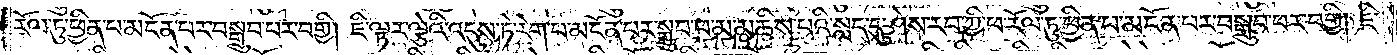རོལ་ཏུ་ཕྱིན་པ་མངོན་པར་བསྒྲུབ་པར་བགྱི། ཇི་ལྟར་ལྕེའི་འདུས་ཏེ་རེག་པ་མངོན་པར་སྒྲུབ་པ་མ་མཆིས་པའི་སླད་དུ་ཤེས་རབ་ཀྱི་ཕ་རོལ་ཏུ་ཕྱིན་པ་མངོན་པར་བསྒྲུབ་པར་བགྱི། ཇི་
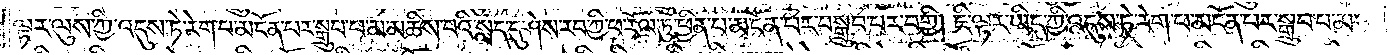ལྟར་ལུས་ཀྱི་འདུས་ཏེ་རེག་པ་མངོན་པར་སྒྲུབ་པ་མ་མཆིས་པའི་སླད་དུ་ཤེས་རབ་ཀྱི་ཕ་རོལ་ཏུ་ཕྱིན་པ་མངོན་པར་བསྒྲུབ་པར་བགྱི། ཇི་ལྟར་ཡིད་ཀྱི་འདུས་ཏེ་རེག་པ་མངོན་པར་སྒྲུབ་པ་མ་
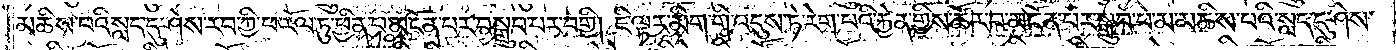མཆིས་པའི་སླད་དུ་ཤེས་རབ་ཀྱི་ཕ་རོལ་ཏུ་ཕྱིན་པ་མངོན་པར་བསྒྲུབ་པར་བགྱི། ཇི་ལྟར་མིག་གི་འདུས་ཏེ་རེག་པའི་རྐྱེན་གྱིས་ཚོར་བ་མངོན་པར་སྒྲུབ་པ་མཆིས་པའི་སླད་དུ་ཤེས་
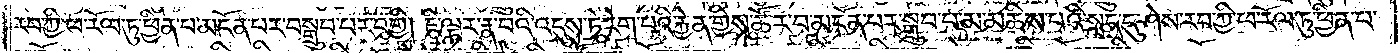རབ་ཀྱི་ཕ་རོལ་ཏུ་ཕྱིན་པ་མངོན་པར་བསྒྲུབ་པར་བགྱི། ཇི་ལྟར་རྣ་བའི་འདུས་རེ་རག་པའི་རྐྱེན་གྱིས་ཚོར་བ་མངོན་པར་སྒྲུབ་པ་མ་མཆིས་པའི་སླད་དུ་ཤེས་རབ་ཀྱི་ཕ་རོལ་ཏུ་ཕྱིན་པ་
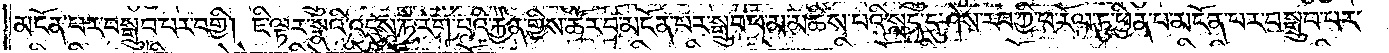མངོན་པར་བསྒྲུབ་པར་བགྱི། ཇི་ལྟར་སྣའི་འདུས་རེ་རེག་པའི་རྐྱེན་གྱིས་ཚོར་བ་མངོན་པར་སྒྲུབ་པ་མ་མཆིས་པའི་སླད་དུ་ཤེས་རབ་ཀྱི་ཕ་རོལ་ཏུ་ཕྱིན་པ་མངོན་པར་བསྒྲུབ་པར་
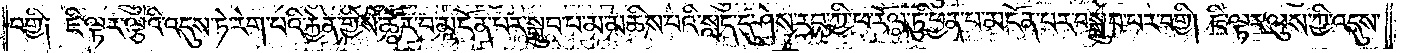བགྱི༑ ཇི་ལྟར་ལྕེའི་འདུས་ཏེ་རེག་པའི་རྐྱེན་གྱིས་ཚོར་བ་མངོན་པར་སྒྲུབ་པ་མ་མཆིས་པའི་སླད་དུ་ཤེས་རབ་ཀྱི་ཕ་རོལ་ཏུ་ཕྱིན་པ་མངོན་པར་བསྒྲུབ་པར་བགྱི། ཇི་ལྟར་ལུས་ཀྱི་འདུས་
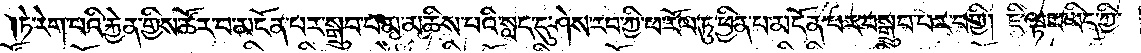ཏེ་རེག་པའི་རྐྱེན་གྱིས་ཚོར་བ་མངོན་པར་སྒྲུབ་པ་མ་མཆིས་པའི་སླད་དུ་ཤེས་རབ་ཀྱི་ཕ་རོལ་ཏུ་ཕྱིན་པ་མངོན་པར་བསྒྲུབ་པར་བགྱི། ཇི་ལྟར་ཡིད་ཀྱི་
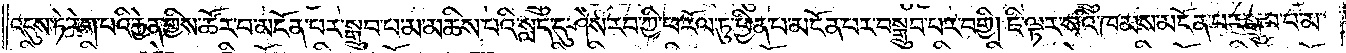འདུས་ཏེ་རེག་པའི་རྐྱེན་གྱིས་ཚོར་བ་མངོན་པར་སྒྲུབ་པ་མ་མཆིས་པའི་སླད་དུ་ཤེས་རབ་ཀྱི་ཕ་རོལ་ཏུ་ཕྱིན་པ་མངོན་པར་བསྒྲུབ་པར་བགྱི། ཇི་ལྟར་སའི་ཁམས་མངོན་པར་སྒྲུབ་པ་མ་
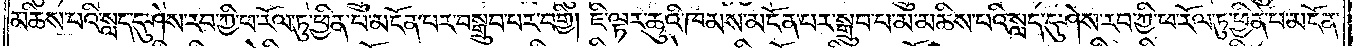མཆིས་པའི་སླད་དུ་ཤེས་རབ་ཀྱི་ཕ་རོལ་ཏུ་ཕྱིན་པ་མངོན་པར་བསྒྲུབ་པར་བགྱི། ཇི་ལྟར་ཆུའི་ཁམས་མངོན་པར་སྒྲུབ་པ་མ་མཆིས་པའི་སླད་དུ་ཤེས་རབ་ཀྱི་ཕ་རོལ་ཏུ་ཕྱིན་པ་མངོན་
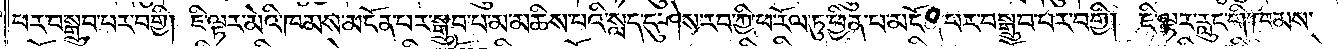པར་བསྒྲུབ་པར་བགྱི། ཇི་ལྟར་མེའི་ཁམས་མངོན་པར་སྒྲུབ་པ་མ་མཆིས་པའི་སླད་དུ་ཤེས་རབ་ཀྱི་ཕ་རོལ་ཏུ་ཕྱིན་པ་མངོན་པར་བསྒྲུབ་པར་བགྱི། ཇི་ལྟར་རླུང་གི་ཁམས་
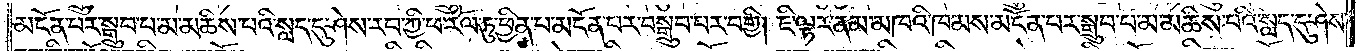མངོན་པར་སྒྲུབ་པ་མ་མཆིས་པའི་སླད་དུ་ཤེས་རབ་ཀྱི་ཕ་རོལ་ཏུ་ཕྱིན་པ་མངོན་པར་བསྒྲུབ་པར་བགྱི། ཇི་ལྟར་ནམ་མཁའི་ཁམས་མངོན་པར་སྒྲུབ་པ་མ་མཆིས་པའི་སླད་དུ་ཤེས་
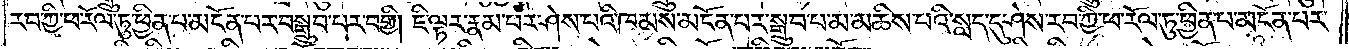རབ་ཀྱི་ཕ་རོལ་ཏུ་ཕྱིན་པ་མངོན་པར་བསྒྲུབ་པར་བགྱི། ཇི་ལྟར་རྣམ་པར་ཤེས་པའི་ཁམས་མངོན་པར་སྒྲུབ་པ་མ་མཆིས་པའི་སླད་དུ་ཤེས་རབ་ཀྱི་ཕ་རོལ་ཏུ་ཕྱིན་པ་མངོན་པར་
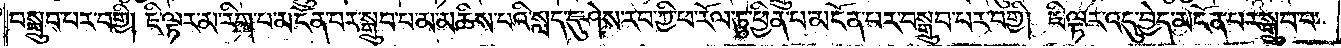བསྒྲུབ་པར་བགྱི། ཇི་ལྟར་མ་རིག་པ་མངོན་པར་སྒྲུབ་པ་མ་མཆིས་པའི་སླད་དུ་ཤེས་རབ་ཀྱི་ཕ་རོལ་ཏུ་ཕྱིན་པ་མངོན་པར་བསྒྲུབ་པར་བགྱི། ཇི་ལྟར་འདུ་བྱེད་མངོན་པར་སྒྲུབ་པ་
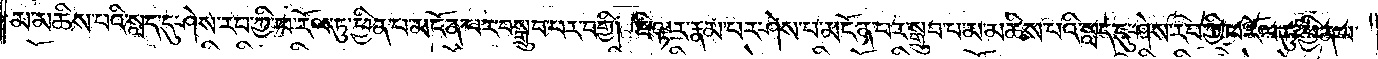མ་མཆིས་པའི་སླད་དུ་ཤེས་རབ་ཀྱི་ཕ་རོལ་ཏུ་ཕྱིན་པ་མངོན་པར་བསྒྲུབ་པར་བགྱི། ཇི་ལྟར་རྣམ་པར་ཤེས་པ་མངོན་པར་སྒྲུབ་པ་མ་མཆིས་པའི་སླད་དུ་ཤེས་རབ་ཀྱི་ཕ་རོལ་ཏུ་ཕྱིན་པ་
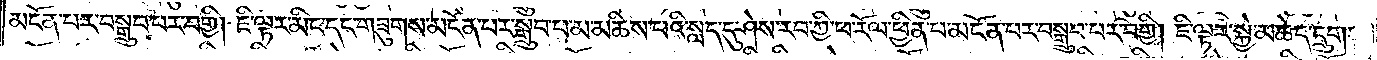མངོན་པར་བསྒྲུབ་པར་བགྱི། ཇི་ལྟར་མིང་དང་གཟུགས་མངོན་པར་སྒྲུབ་པ་མ་མཆིས་པའི་སླད་དུ་ཤེས་རབ་ཀྱི་ཕ་རོལ་ཏུ་ཕྱིན་པ་མངོན་པར་བསྒྲུབ་པར་བགྱི། ཇི་ལྟར་སྐྱེ་མཆེད་དྲུག་
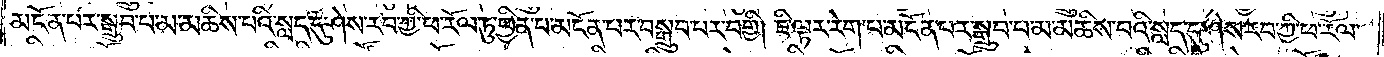མངོན་པར་སྒྲུབ་པ་མ་མཆིས་པའི་སླད་དུ་ཤེས་རབ་ཀྱི་ཕ་རོལ་ཏུ་ཕྱིན་པ་མངོན་པར་བསྒྲུབ་པར་བགྱི། ཇི་ལྟར་རེག་པ་མངོན་པར་སྒྲུབ་པ་མ་མཆིས་པའི་སླད་དུ་ཤེས་རབ་ཀྱི་ཕ་རོལ་
